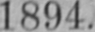1894.
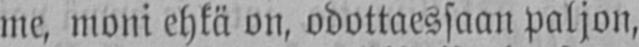me, moni ehkä on, odottaessaan paljon,
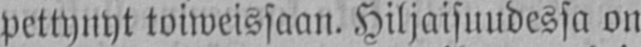pettynyt toiweissaan. Hiljaisuudessa on
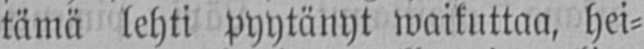tämä lehti pyytänyt waikuttaa, hei-
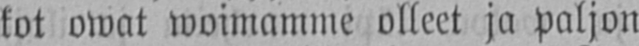kot owat woimamme olleet ja paljon
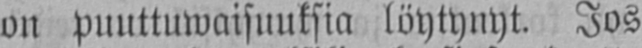on puuttuwaisuuksia löytynyt. Jos
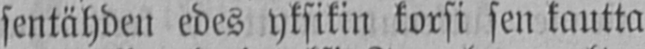sentähden edes yksikin korsi sen kautta
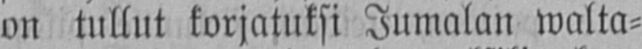on tullut korjatuksi Jumalan walta-
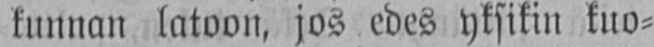kunnan latoon, jos edes yksikin kuo-
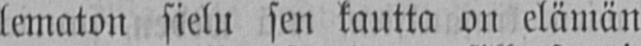lematon sielu sen kautta on elämän
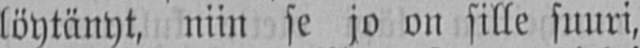löytänyt, niin se jo on sille suuri,
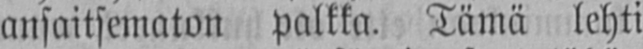ansaitsematon palkka. Tämä lehti
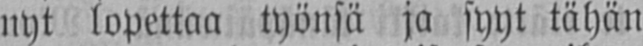nyt lopettaa työnsä ja syyt tähän
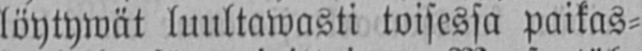löytywät luultawasti toisessa paikas-
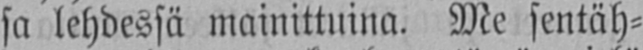sa lehdessä mainittuina. Me sentäh-
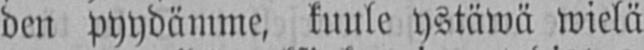den pyydämme, kuule ystäwä wielä
